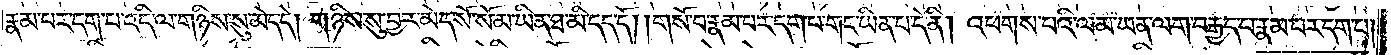རྣམ་པར་དག་པ་འདི་ལ་གཉིས་སུ་མེད་དེ། གཉིས་སུ་བྱར་མེད་སོ་སོ་མ་ཡིན་ཐ་མི་དད་དོ། །གསོ་བ་རྣམ་པར་དག་པ་གང་ཡིན་པ་དེ་ནི། འཕགས་པའི་ལམ་ཡན་ལག་བརྒྱད་པ་རྣམ་པར་དག་པ།
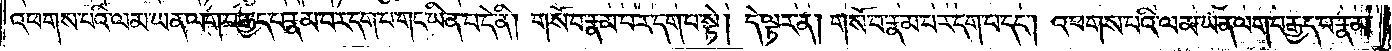འཕགས་པའི་ལམ་ཡན་ལག་བརྒྱད་པ་རྣམ་པར་དག་པ་གང་ཡིན་པ་དེ་ནི། གསོ་བ་རྣམ་པར་དག་པ་སྟེ། དེ་ལྟར་ན། གསོ་བ་རྣམ་པར་དག་པ་དང༌། འཕགས་པའི་ལམ་ཡན་ལག་བརྒྱད་པ་རྣམ་
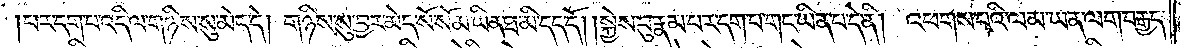པར་དག་པ་འདི་ལ་གཉིས་སུ་མེད་དེ། གཉིས་སུ་བྱར་མེད་སོ་སོ་མ་ཡིན་ཐ་མི་དད་དོ། །སྐྱེས་བུ་རྣམ་པར་དག་པ་གང་ཡིན་པ་དེ་ནི། འཕགས་པའི་ལམ་ཡན་ལག་བརྒྱད་
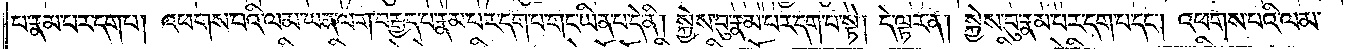པ་རྣམ་པར་དག་པ། འཕགས་པའི་ལམ་ཡན་ལག་བརྒྱད་པ་རྣམ་པར་དག་པ་གང་ཡིན་པ་དེ་ནི། སྐྱེས་བུ་རྣམ་པར་དག་པ་སྟེ། དེ་ལྟར་ན། སྐྱེས་བུ་རྣམ་པར་དག་པ་དང༌། འཕགས་པའི་ལམ་
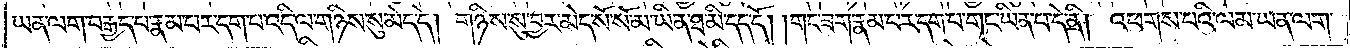ཡན་ལག་བརྒྱད་བ་རྣམ་པར་དག་པ་འདི་ལ་གཉིས་སུ་མེད་དེ། གཉིས་སུ་བྱར་མེད་སོ་སོ་མ་ཡིན་ཐ་མི་དད་དོ། །གང་ཟག་རྣམ་པར་དག་པ་གང་ཡིན་པ་དེ་ནི། འཕགས་པའི་ལམ་ཡན་ལག་
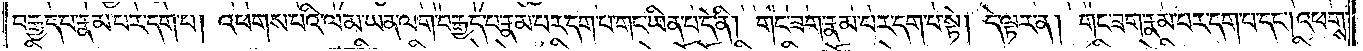བརྒྱད་པ་རྣམ་པར་དག་པ། འཕགས་པའི་ལམ་ཡན་ལག་བརྒྱད་པ་རྣམ་པར་དག་པ་གང་ཡིན་པ་དེ་ནི། གང་ཟག་རྣམ་པར་དག་པ་སྟེ། དེ་ལྟར་ན། གང་ཟག་རྣམ་པར་དག་པ་དང༌། འཕགས་
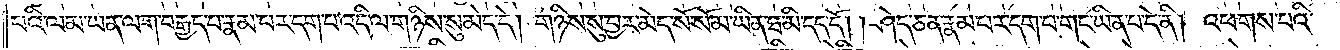པའི་ལམ་ཡན་ལག་བརྒྱད་པ་རྣམ་པར་དག་པ་འདི་ལ་གཉིས་སུ་མེད་དེ། གཉིས་སུ་བྱར་མེད་སོ་སོ་མ་ཡིན་ཐ་མི་དད་དོ། །ཤེད་ཅན་རྣམ་པར་དག་པ་གང་ཡིན་པ་དེ་ནི། འཕགས་པའི་
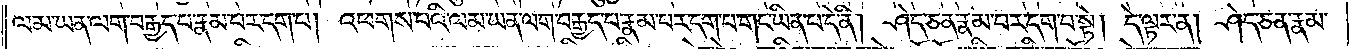ལམ་ཡན་ལག་བརྒྱད་པ་རྣམ་པར་དག་པ། འཕགས་པའི་ལམ་ཡན་ལག་བརྒྱད་པ་རྣམ་པར་དག་པ་གང་ཡིན་པ་དེ་ནི། ཤེད་ཅན་རྣམ་པར་དག་པ་དག་པ་སྟེ། དེ་ལྟར་ན། ཤེད་ཅན་རྣམ་
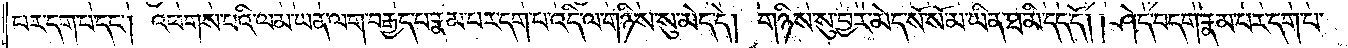པར་དག་པ་དང༌། འཕགས་པའི་ལམ་ཡན་ལག་བརྒྱད་པ་རྣམ་པར་དག་པ་འདི་ལ་གཉིས་སུ་མེད་དེ། གཉིས་སུ་བྱར་མེད་སོ་སོ་མ་ཡིན་ཐ་མི་དད་དོ། །ཤེད་བདག་རྣམ་པར་དག་པ་
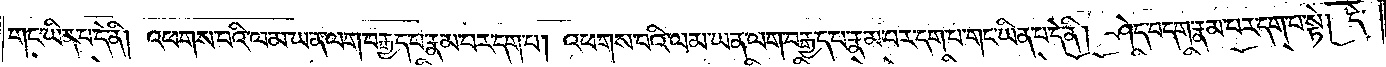གང་ཡིན་པ་དེ་ནི། འཕགས་པའི་ལམ་ཡན་ལག་བརྒྱད་པ་རྣམ་པར་དག་པ། འཕགས་པའི་ལམ་ཡན་ལག་བརྒྱད་པ་རྣམ་པར་དག་པ་གང་ཡིན་པ་དེ་ནི། ཤེད་བདག་རྣམ་པར་དག་པ་སྟེ། དེ་
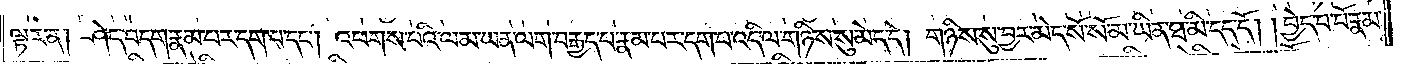ལྟར་ན། ཤེད་བདག་རྣམ་པར་དག་པ་དང༌། འཕགས་པའི་ལམ་ཡན་ལག་བརྒྱད་པ་རྣམ་པར་དག་པ་འདི་ལ་གཉིས་སུ་མེད་དེ། གཉིས་སུ་བྱར་མེད་སོ་སོ་མ་ཡིན་ཐ་མི་དད་དོ། །བྱེད་པ་པོ་རྣམ་
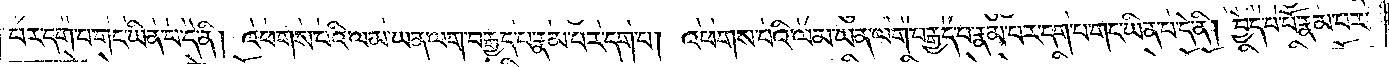པར་དག་པ་གང་ཡིན་པ་དེ་ནི། འཕགས་པའི་ལམ་ཡན་ལག་བརྒྱད་པ་རྣམ་པར་དག་པ། འཕགས་པའི་ལམ་ཡན་ལག་བརྒྱད་པ་རྣམ་པར་དག་པ་གང་ཡིན་པ་དེ་ནི། བྱེད་པ་པོ་རྣམ་པར་
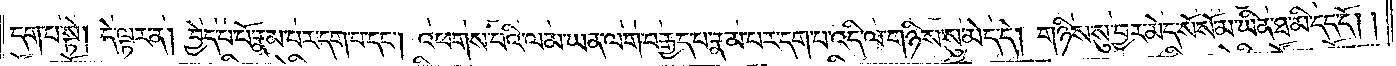དག་པ་སྟེ། དེ་ལྟར་ན། བྱེད་པ་པོ་རྣམ་པར་དག་པ་དང༌། འཕགས་པའི་ལམ་ཡན་ལག་བརྒྱད་པ་རྣམ་པར་དག་པ་འདི་ལ་གཉིས་སུ་མེད་དེ། གཉིས་སུ་བྱར་མེད་སོ་སོ་མ་ཡིན་ཐ་མི་དད་དོ། །
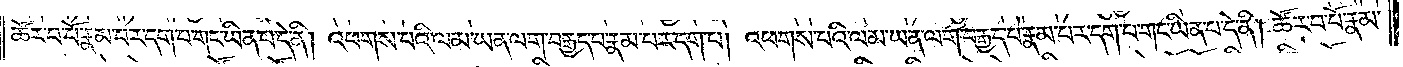ཚོར་བ་པོ་རྣམ་པར་དག་པ་གང་ཡིན་པ་དེ་ནི། འཕགས་པའི་ལམ་ཡན་ལག་བརྒྱད་པ་རྣམ་པར་དག་པ། འཕགས་པའི་ལམ་ཡན་ལག་བརྒྱད་པ་རྣམ་པར་དག་པ་གང་ཡིན་པ་དེ་ནི། ཚོར་བ་པོ་རྣམ་
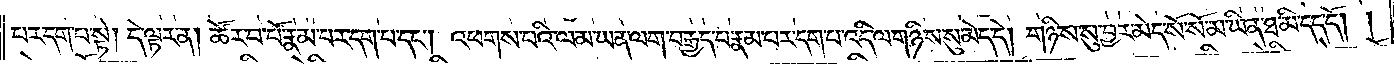པར་དག་པ་སྟེ། དེ་ལྟར་ན། ཚོར་བ་པོ་རྣམ་པར་དག་པ་དང༌། འཕགས་པའི་ལམ་ཡན་ལག་བརྒྱད་པ་རྣམ་པར་དག་པ་འདི་ལ་གཉིས་སུ་མེད་དེ། གཉིས་སུ་བྱར་མེད་སོ་སོ་མ་ཡིན་ཐ་མི་དད་དོ། །
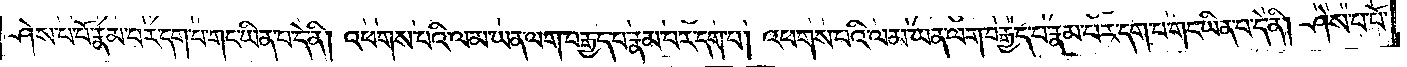ཤེས་པ་པོ་རྣམ་པར་དག་པ་གང་ཡིན་པ་དེ་ནི། འཕགས་པའི་ལམ་ཡན་ལག་བརྒྱད་པ་རྣམ་པར་དག་པ་དག་པ། འཕགས་པའི་ལམ་ཡན་ལག་བརྒྱད་པ་རྣམ་པར་དག་པ་གང་ཡིན་པ་དེ་ནི། ཤེས་པ་པོ་
